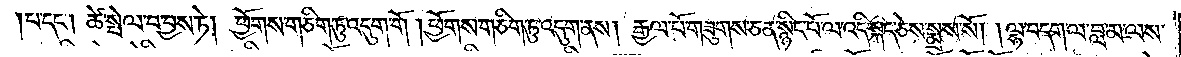།པ་དང༌། ཚེ་སྤེལ་བ་བྱས་ཏེ། ཕྱོགས་གཅིག་ཏུ་འདུག་གོ །ཕྱོགས་གཅིག་ཏུ་འདུག་ནས། རྒྱལ་པོ་གཟུགས་ཅན་སྙིང་པོ་ལ་འདི་སྐད་ཅེས་སྨྲས་སོ། །ལྷ་བདག་ལ་བླ་མ་ལས་
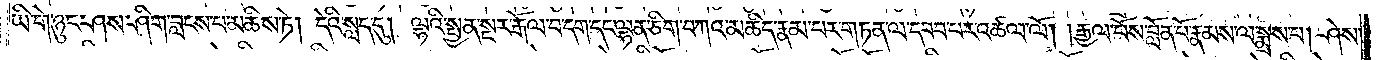ཡི་གེ་ཉུང་ཤས་ཤིག་བླངས་པ་མཆིས་ཏེ། དེའི་སླད་དུ། ལྷའི་སྤྱན་སྔར་རྒོལ་བ་དག་དང་ལྷན་ཅིག་བཀའ་མཆིད་རྣམ་པར་གཏན་ལ་དབབ་པར་འཚལ་ལོ། །རྒྱལ་པོས་བློན་པོ་རྣམས་ལ་སྨྲས་པ། ཤེས་
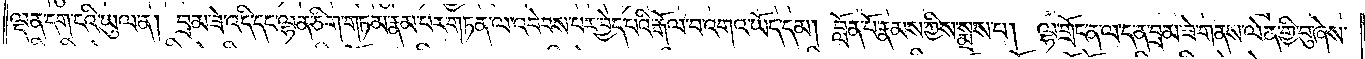ལྡན་དག་ངའི་ཡུལ་ན། བྲམ་ཟེ་འདི་དང་ལྷན་ཅིག་གཏམ་རྣམ་པར་གཏན་ལ་འབེབས་པར་བྱེད་པའི་རྒོལ་བ་འགའ་ཡོད་དམ། བློན་པོ་རྣམས་ཀྱིས་སྨྲས་པ། ལྷ་གྲོང་ན་ལ་དན་བྲམ་ཟེ་གནས་ལེན་གྱི་བུ་ཞེས་
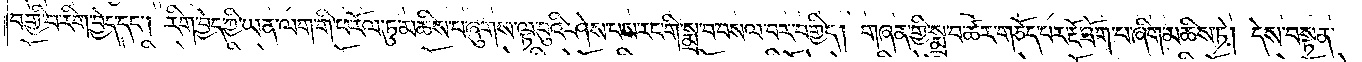བགྱི་བ་རིག་བྱེད་དང༌། རིག་བྱེད་ཀྱི་ཡན་ལག་གི་ཕ་རོལ་ཏུ་མཆིས་པ་ཞུགས་ལྟ་བུའི་ཤེས་པས་རང་གི་སྨྲ་བ་བསལ་བར་བགྱིད། གཞན་གྱི་སྨྲ་བ་ཚར་གཅོད་པར་རྔོ་ཐོག་པ་ཞིག་མཆིས་ཏེ། དེས་བསྟན་
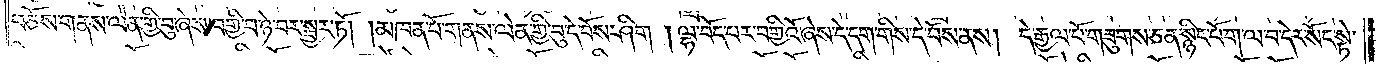བཅོས་གནས་ལེན་གྱི་བུ་ཞེས་བགྱི་བ་ཉེ་བར་སྦྱར་ཏོ། །མཁན་པོ་གནས་ལེན་གྱི་བུ་དེ་བོས་ཤིག །ལྷ་བོད་པར་བགྱིའོ་ཞེས་དེ་དག་གིས་དེ་བོས་ནས། དེ་རྒྱལ་པོ་གཟུགས་ཅན་སྙིང་པོ་ག་ལ་བ་དེར་སོང་སྟེ་
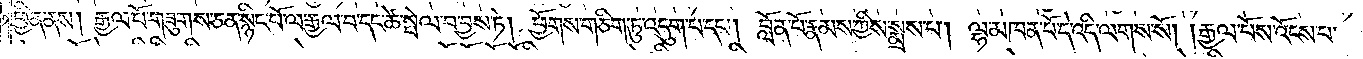ཕྱིན་ནས། རྒྱལ་པོ་གཟུགས་ཅན་སྙིང་པོ་ལ་རྒྱལ་བ་དང་ཚེ་སྤེལ་བ་བྱས་ཏེ། ཕྱོགས་གཅིག་ཏུ་འདུག་པ་དང༌། བློན་པོ་རྣམས་ཀྱིས་སྨྲས་པ། ལྷ་མཁན་པོ་དེ་འདི་ལགས་སོ། །རྒྱལ་པོས་འོངས་པ་
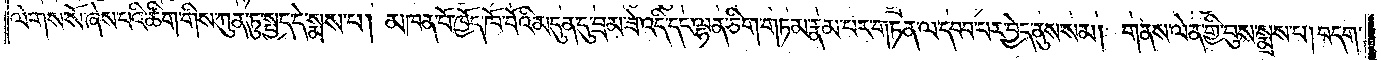ལེགས་སོ་ཞེས་པའི་ཚིག་གིས་ཀུན་ཏུ་སྤྱད་དེ་སྨྲས་པ། མཁན་པོ་ཁྱོད་ཁོ་བོའི་མདུན་དུ་བྲམ་ཟེ་འདི་དང་ལྷན་ཅིག་གཏམ་རྣམ་པར་གཏན་ལ་དབབ་པར་བྱེད་ནུས་སམ། གནས་ལེན་གྱི་བུས་སྨྲས་པ། བདག་
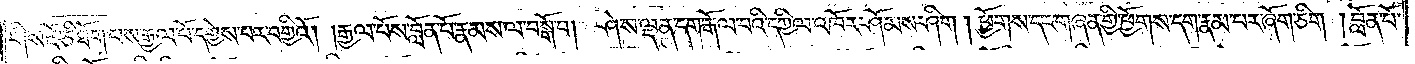གིས་རྡོ་ཅི་ཐོག་པས་རྒྱལ་པོ་དགྱེས་པར་བགྱིའོ། །རྒྱལ་པོས་བློན་པོ་རྣམས་ལ་བསྒོ་བ། ཤེས་ལྡན་དག་རྒོལ་བའི་དཀྱིལ་འཁོར་ཤོམས་ཤིག །ཕྱོགས་དང་གཞན་གྱི་ཕྱོགས་དག་རྣམ་པར་ཞོག་ཅིག །བློན་པོ་
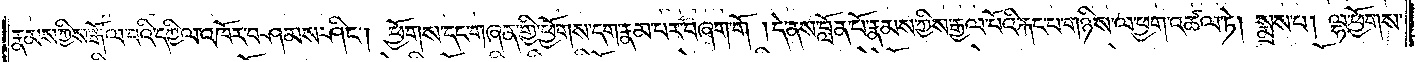རྣམས་ཀྱིས་རྒོལ་བའི་དཀྱིལ་འཁོར་བཤམས་ཤིང༌། ཕྱོགས་དང་གཞན་གྱི་ཕྱོགས་དག་རྣམ་པར་བཞག་གོ །དེ་ནས་བློན་པོ་རྣམས་ཀྱིས་རྒྱལ་པོའི་རྐང་པ་གཉིས་ལ་ཕྱག་འཚལ་ཏེ། སྨྲས་པ། ལྷ་ཕྱོགས་
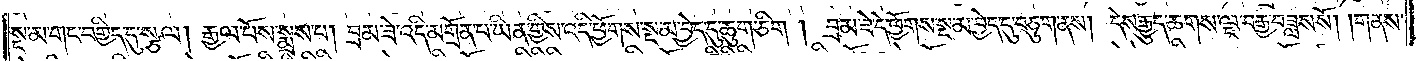སྔ་མ་གང་བགྱིད་དུ་སྩལ། རྒྱལ་པོས་སྨྲས་པ། བྲམ་ཟེ་འདི་མགྲོན་པ་ཡིན་གྱིས་འདི་ཕྱོགས་སྔ་མ་བྱེད་དུ་ཆུག་ཅིག །བྲམ་ཟེ་དེ་ཕྱོགས་སྔ་མ་བྱེད་དུ་བཅུག་ནས། དེས་རྒྱུད་ཆགས་ལྔ་བརྒྱ་བཟླས་སོ། །གནས་
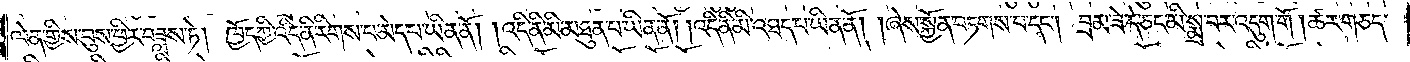ལེན་གྱིས་བུས་ཕྱིར་བཟླས་ཏེ། ཁྱོད་ཀྱི་འདི་ནི་རིགས་པ་མེད་པ་ཡིན་ནོ། །འདི་ནི་མི་མཐུན་པ་ཡིན་ནོ། །འདི་ནི་མི་འཐད་པ་ཡིན་ནོ། །ཞེས་སྐྱོན་བཏགས་པ་དང༌། བྲམ་ཟེ་དེ་ཅང་མི་སྨྲ་བར་འདུག་གོ །ཚར་གཅད་
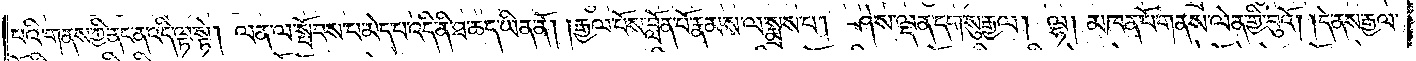པའི་གནས་ཀྱི་ནང་ན་འདི་ལྟ་སྟེ། ལན་ལ་སྤོབས་པ་མེད་པ་འདི་ནི་ཐ་ཆད་ཡིན་ནོ། །རྒྱལ་པོས་བློན་པོ་རྣམས་ལ་སྨྲས་པ། ཤེས་ལྡན་དག་སུ་རྒྱལ། ལྷ། མཁན་པོ་གནས་ལེན་གྱི་བུའོ། །དེ་ནས་རྒྱལ་
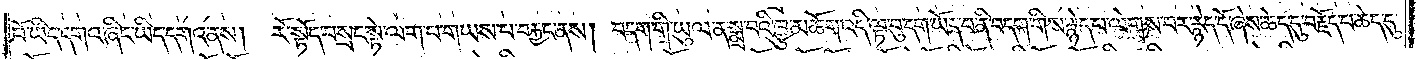པོ་ཡིད་དགའ་ཞིང་ཡིད་དགའ་ནས། རོ་སྟོད་བསྲང་སྟེ་ལག་པ་གཡས་པ་བརྐྱང་ནས། བདག་གི་ཡུལ་ན་སྨྲ་བའི་ཁྱུ་མཆོག་འདི་ལྟ་བུ་དག་ཡོད་པ་ནི་བདག་གིས་རྙེད་པ་ལེགས་པར་རྙེད་དོ་ཞེས་ཆེད་དུ་བརྗོད་པ་ཆེད་དུ་
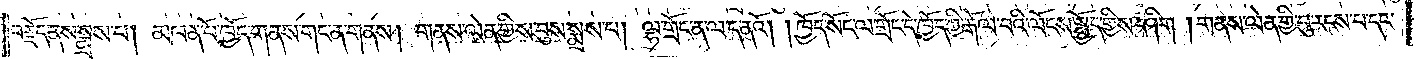བརྗོད་ནས་སྨྲས་པ། མཁན་པོ་ཁྱོད་གནས་གང་ན་གནས། གནས་ལེན་གྱིས་བུས་སྨྲས་པ། ལྷ་གྲོང་ན་ལ་ད་ནའོ། །ཁྱོད་སོང་ལ་གྲོང་དེ་ཁྱོད་ཀྱི་རྒོལ་བའི་ལོངས་སྤྱོད་གྱིས་ཤིག །གནས་ལེན་གྱི་བུ་རངས་པ་དང་
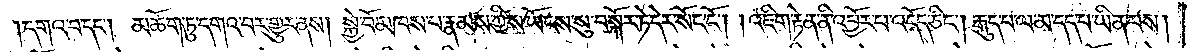།དགའ་བ་དང༌། མཆོག་ཏུ་དགའ་བར་གྱུར་ནས། སྐྱེ་བོ་མཁས་པ་རྣམས་ཀྱིས་ཡོངས་སུ་བསྐོར་ཏེ་དེར་སོང་ངོ༌། །འཇིག་རྟེན་ནི་འབྱོར་པ་འདོད་ཅིང༌། རྒུད་པ་ལ་མ་དད་པ་ཡིན་པས།
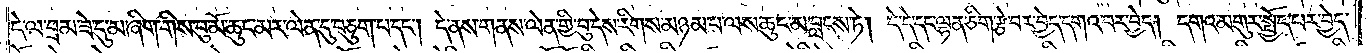དེ་ལ་བྲམ་ཟེ་དུ་མ་ཞིག་གིས་བུ་མོ་ཆུང་མར་ལེན་དུ་བཅུག་པ་དང༌། དེ་ནས་གནས་ལེན་གྱི་བུ་དེས་རིགས་མཉམ་པ་ལས་ཆུང་མ་བླངས་ཏེ། དེ་དེ་དང་ལྷན་ཅིག་རྩེ་བར་བྱེད་དགའ་བར་བྱེད། དགའ་མགུར་སྤྱོད་པར་བྱེད་
